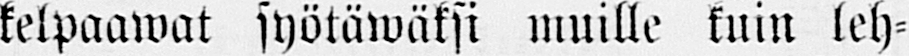kelpaawat syötäwäksi muille kuin leh-
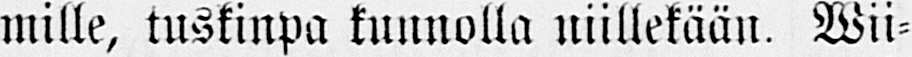mille, tuskinpa kunnolla niillekään. Wii-
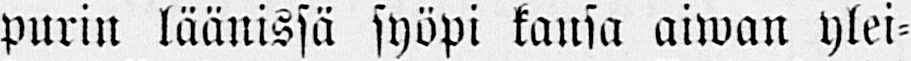purin läänissä syöpi kansa aiwan ylei-
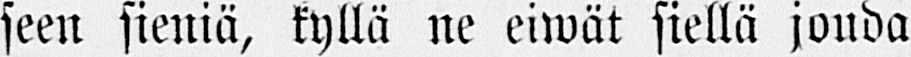seen sieniä, kyllä ne eiwät siellä jouda
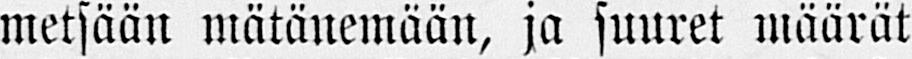metsään mätänemään, ja suuret määrät
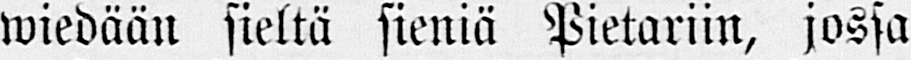wiedään sieltä sieniä Pietariin, jossa
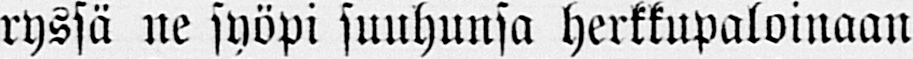ryssä ne syöpi suuhunsa herkkupaloinaan
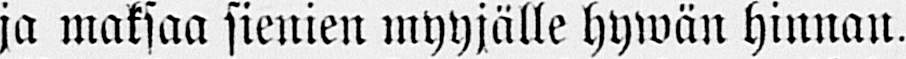ja maksaa sienien myyjälle hywän hinnan.
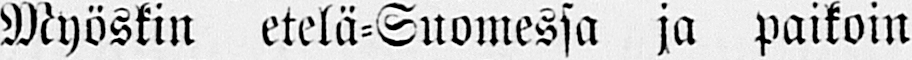Myöskin etelä-Suomessa ja paikoin
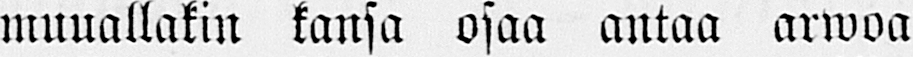muuallakin kansa osaa antaa arwoa
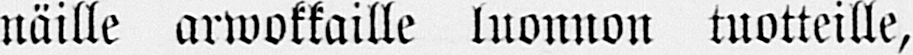näille arwokkaille luonnon tuotteille,
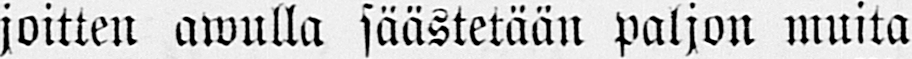joitten awulla säästetään paljon muita
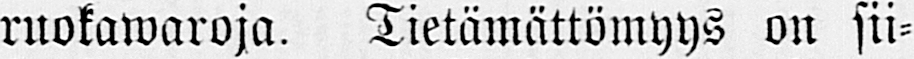ruokawaroja. Tietämättömyys on sii-
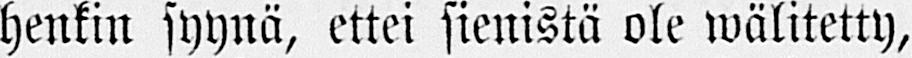henkin syynä, ettei sienistä ole wälitetty,
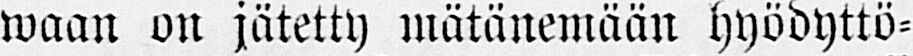waan on jätetty mätänemään hyödyttö-
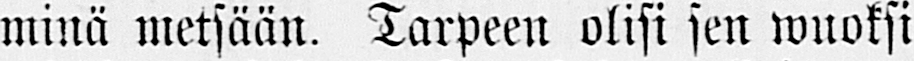minä metsään. Tarpeen olisi sen wuoksi
